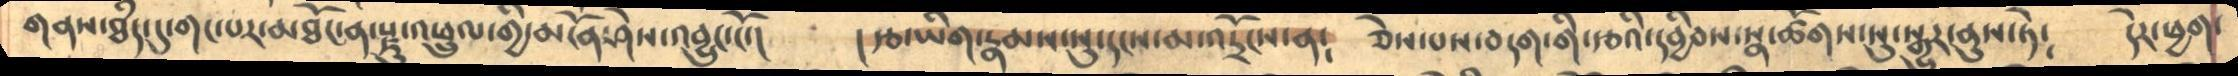གནས་ཐཾད་དུ་གང་པར་མཐོང་ན་རྫུ་འཕྲུལ་གྱི་མངོན་ཤེས་འབྱུང་ངོ་།    །རྩ་ཡིག་རྣམས་སུ་དངས་མ་འདྲོངས་ན༴   ཅེས་པས་བདག་གི་རྩའི་དབྱིབས་སྣ་ཚོགས་སུ་སྒྱུར་ནུས་ཏེ༴   དེར་ཕྱག་
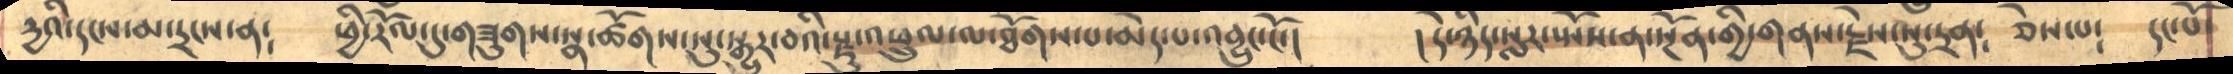དྱའི་དངས་མ་དྲངས་ན༴     ཕྱི་རོལ་དུ་གཟུགས་སྣ་ཚོགས་སུ་སྒྱུར་བའི་རྫུ་འཕྲུལ་ལ་ཐོགས་པ་མེད་པ་འབྱུང་ངོ་།   །དེ་ཉིད་སླར་སྤོས་ན་སྔོན་གྱི་གནས་རྗེས་སུ་དྲན༴  ཅེས་པ༴  དང་པོ་
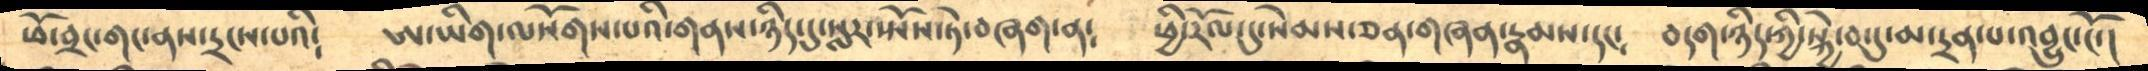ཕོ་བྲང་གང་ནས་དྲངས་པའི༴    ཨ་ཡིག་ལསོགས་པའི་གནས་ཉིད་དུསླར་སྤོས་ཏེ་བཞག་ན༴   ཕྱི་རོལ་དུ་སེམས་ཅན་གཞན་རྣམས་དང༴    བདག་ཉིད་ཀྱི་སྐྱེ་བ་དུ་མ་དྲན་པ་འབྱུང་ངོ་།
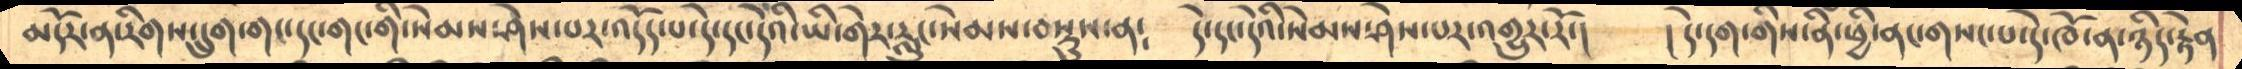མདོར་ན་རིགས་དྲུག་གང་དང་གང་གི་སེམས་ཤེས་པར་འདོད་པ་དེ་དང་དེའི་ཡི་གེར་རླུང་སེམས་བསྡུས་ན༴   དེ་དང་དེའི་སེམས་ཤེས་པར་འགྱུར་རོ་།   ། དེ་དག་གིས་ནི་ཕྱི་ནང་གསང་པ་དེ་ཁོ་ན་ཉིད་རྟེན
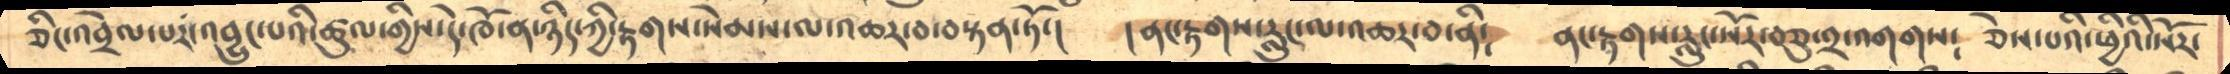ཅིང་འབྲེལ་པར་འབྱུང་པའི་ཚུལ་གྱིས་དེ་ཁོ་ན་ཉིད་ཀྱི་རྟགས་སེམས་ལ་འཆར་བ་བསྟན་ཏོ་།   །ནང་རྟགས་རླུང་ལ་འཆར་བ་ནི༴  ནང་རྟགས་རླུང་སོར་བཅུ་༢་འགགས༴  ཅེས་པའི་ཕྱིའི་སོར་
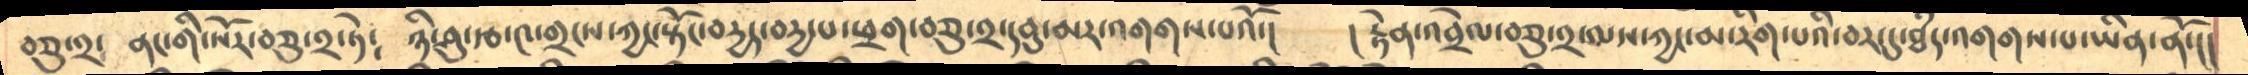བཅུ་༢༴   ནང་གི་སོར་བཅུ་༢་ཏེ༴   ཉི་ཤུ་རྩ་༤་གྲངས་ཀྱང་སྟོང་བདྱད་བདྱ་པ་ཕྲག་བཅུ་༢་དབུ་མར་འགགས་པའོ་།   ། རྟེན་འབྲེལ་བཅུ་༢་ལས་ཀྱང་མ་རིག་པའི་བར་དུ་ཐཾད་འགགས་པ་ཡིན་ནོ་།།
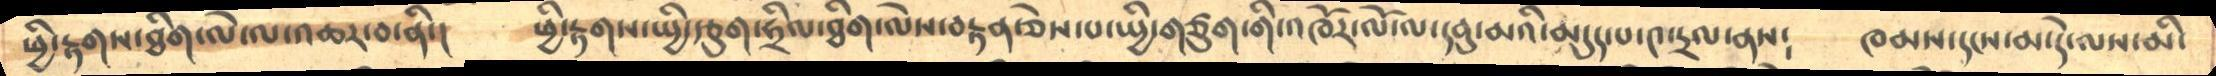ཕྱི་རྟགས་ཐིག་ལེ་ལ་འཆར་བ་ནི་།  ཕྱི་རྟགས་སྤྱི་རྩུག་ཧྲིལ་ཐིག་ལེས་བརྟན་ཅེས་པ་སྤྱི་གཙུག་གི་འཁོར་ལོ་ལ་དབུ་མའི་མདུད་པ་༤་དྲལ་ནས༴   ཁམས་དངས་མ་དེ་ལས་མི་
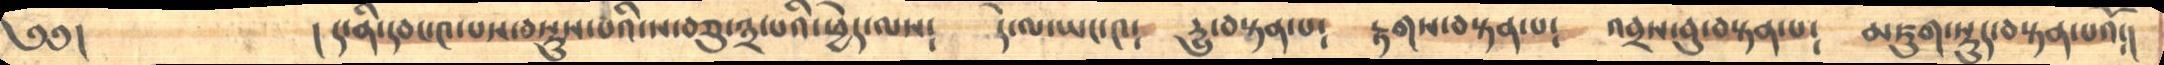༄༅།            ། ད་ནི་དབང་༤་པས་བསྡུས་པའི་ས་བཅུ་༣་པའི་ཕྱེད་ལས༴   དེ་ལ་ཡང་༤༴   དྱུ་བསྟན་པ༴   རྟགས་བསྟན་པ༴   འབྲས་བུ་བསྟན་པ༴  མཇུག་སྡུད་བསྟན་པའོ༴།
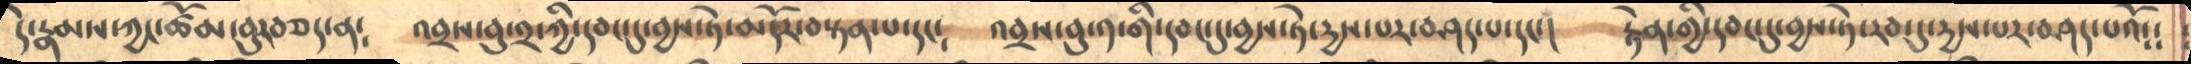དེ་རྣམས་ཀྱང་ཚོམ་བུརབཅད་ན༴     འབྲས་བུ་༢་ཀྱི་དབང་དུ་བྱས་ཏེ་མདོར་བསྟན་པ་དང༴    འབྲས་བུ་༡་གི་དབང་དུ་བྱས་ཏེ་དྱས་པར་བཤད་པ་དང་།    རྟེན་གྱི་དབང་དུ་བྱས་ཏེ་རབ་དུ་དྱས་པར་བཤད་པའོ༴༴
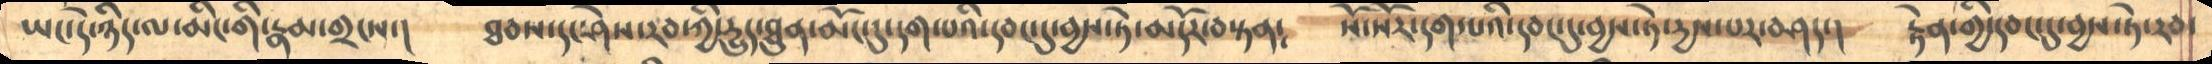ཡང་དེ་ཉིད་ལ་མིང་གི་རྣམ་གྲངས་།     ཐབས་དང་ཤེས་རབ་ཀྱི་དྱུད་ཐུན་མོང་དུ་དག་པའི་དབང་དུ་བྱས་ཏེ་མདོར་བསྟན༴   སོ་སོར་དག་པའི་དབང་དུ་བྱས་ཏེ་དྱས་པར་བཤད་།   རྟེན་གྱི་དབང་དུ་བྱས་ཏེ་རབ་
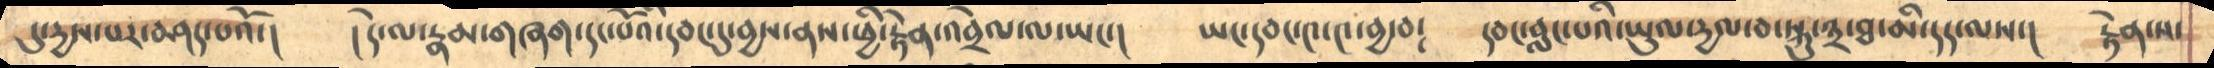དུ་དྱས་པར་བཤད་པའོ་།     །དེ་ལ་རྣམ་གཞག་དང་པོའི་དབང་དུ་བྱས་ནས་ཕྱི་རྟེན་འབྲེལ་ལ་ཡང་།    ཡང་དབང་༤་༤་བྱ་བ༴   དབང་བླང་པའི་ཡུལ་དྱལ་བ་སྐུ་༣་ཐ་མི་དད་ལས་།   རྟེན་ས་
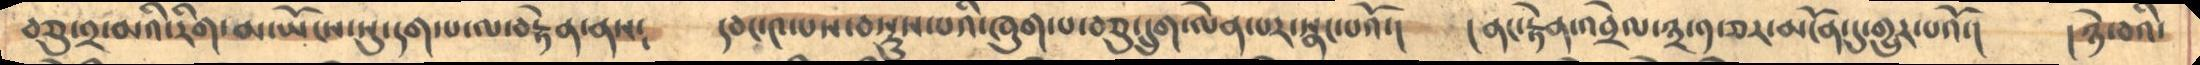བཅུ་༢་མའི་རིག་མ་ཡོངས་སུ་དག་པ་ལ་བརྟེན་ནས༴   དབང་༤་པས་བསྡུས་པའི་ཞུག་པ་བཅུ་དྲུག་ལེན་པར་སྣང་པའོ་།   ། ནང་རྟེན་འབྲེལ་༣་༡་ཅར་མངོན་དུ་གྱུར་པའོ་།   །ཉེ་བའི་
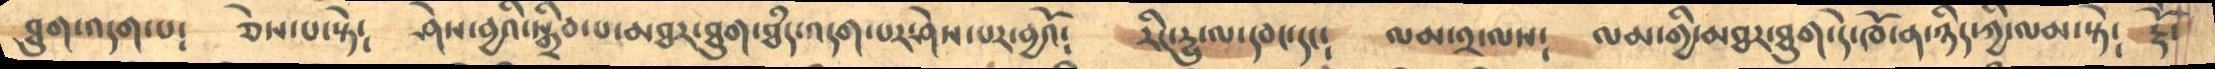ཐུག་འདག་པ༴    ཅེས་པ་སྟེ༴  ཤེས་བྱའི་སྒྲིབ་པ་མཐར་ཐུག་ཐཾད་འདག་པར་ཤེས་པར་བྱའོ༴    རིང་དྱུ་ལ་དབང་དང༴  ལམ་༢་ལས༴   ལམ་གྱི་མཐར་ཐུག་དེ་ཁོ་ན་ཉིད་ཀྱི་ལམ་སྟེ༴  རྡོེ་
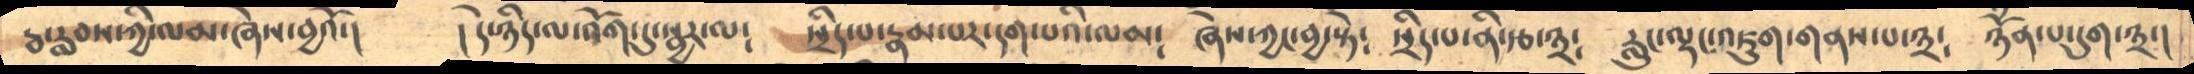རྦ་རླབས་ཀྱི་ལམ་ཞེས་བྱའོ་།    ། དེ་ཉིད་ལ་འོག་དུ་སྦྱར་ལ༴    སྲིད་པ་རྣམ་པར་དག་པའི་ལམ༴  ཞེས་ཀྱང་བྱ་སྟེ༴   སྲིད་པ་ནི་རྩ་༣༴  རླུང་ལྡང་འཇུག་གནས་པ་༣༴   ཉོཾན་པ་དུག་༣་།
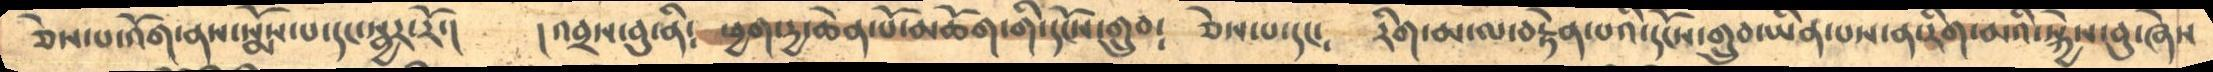ཅེས་པ་འོག་ནས་སྨོས་པ་དང་སྦྱར་རོ་།    །འབྲས་བུ་ནི༴   ཕྱག་དྱ་ཆེན་པོ་མཆོག་གི་དངོས་གྲུབ༴   ཅེས་པ་དང༴   རིག་མ་ལ་བརྟེན་པའི་དངོས་གྲུབ་ཡིན་པས་ན་རིག་མའི་སྐྱེས་བུ་ཞེས
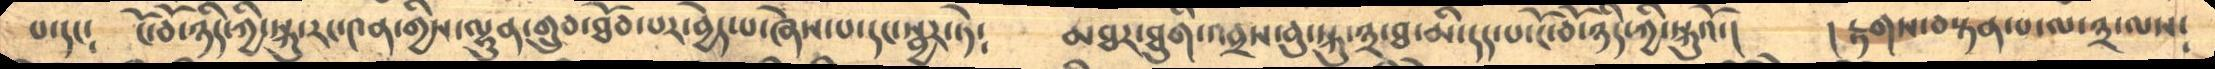པ་དང༴    ངོ་བོ་ཉིད་ཀྱི་སྐུ་རང་༤ན་གྱིས་ལྷུན་གྲུབ་ཐོབ་པར་བྱེད་པ་ཞེས་པ་དང་སྦྱར་ཏེ༴    མཐར་ཐུགི་འབྲས་བུ་སྐུ་༣་ཐ་མི་དད་པ་ངོ་བོ་ཉིད་ཀྱི་སྐུའོ་།    ། རྟགས་བསྟན་པ་ལ་༣་ལས༴
